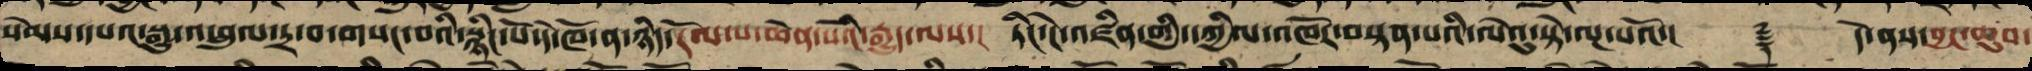སེམས་དཔའ་སྒྱུ་འཕྲུལ་དྲ་བ་གསང་བའི་སྙིང་པོ་དེ་ཁོ་ན་ཉིད་རོལ་པ་ཆེན་པོའི་རྒྱུད་ལས་། ཏིང་འཛིན་གྱི་དཀྱིལ་འཁོར་བསྟན་པའི་ལེའུ་སྟེ་ལྔ་པའོ་།། ༈ དེ་ནས་བྱང་ཆུབ་
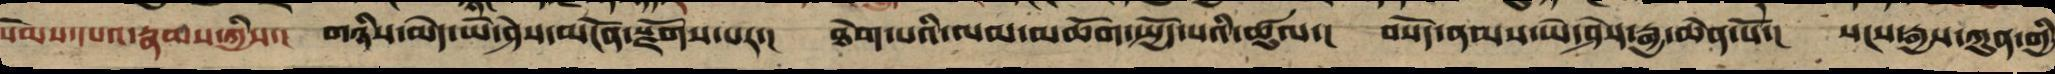སེམས་རྣམས་ཀྱིས་། གཉིས་མེད་ཡེ་ཤེས་མངོན་སྫོགས་པར་། ཐེག་པའི་ལམ་མཆོག་སྤྱད་པའི་ཚུལ་། བསོད་ནམས་ཡེ་ཤེས་རྒྱ་ཆེན་པོ་། སངས་རྒྱས་ཀུན་གྱི
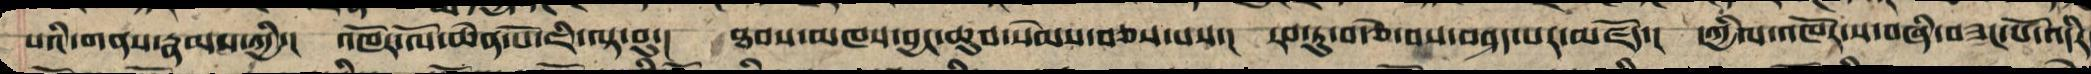པའི་གནས་རྣམས་ཀྱིས་། འཁོར་ལོ་ཆེན་པོ་ཇི་ལྟ་བུ་། ཐབས་མཁས་བྱང་ཆུབ་སེམས་བཅས་པས་། རབ་ཏུ་བརྩེ་བས་བཤད་པར་མཛོད་། དཀྱིལ་འཁོར་ས་གཞི་བཟང་པོ་འདིར
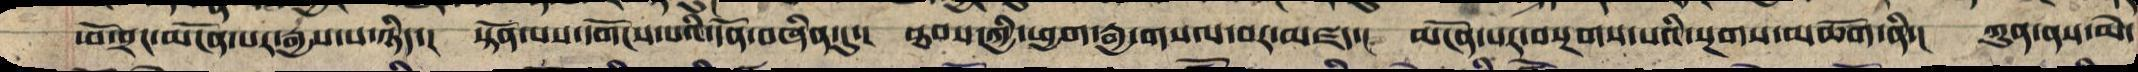ཕོ་བྲང་མངོན་པར་རྒྱས་པ་ཉིད་། སྟོན་པས་དགོངས་པའི་དོན་བཞིན་དུ་། ཐབས་ཀྱི་ཕྱག་རྒྱ་གསལ་བར་མཛད་། མངོན་པར་བསྔགས་པའི་སྔགས་མཆོག་ནི་། ཀུན་ནས་མེ་
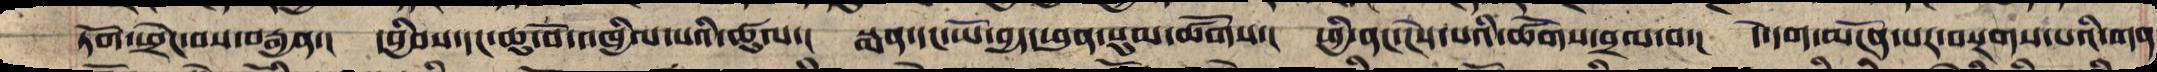ཏོག་ཕྲེང་བས་བརྒྱན་། དབྱིབས་དང་ཆུ་བོ་འཁྱིལ་པའི་ཚུལ་། སྨན་དང་ཡོ་བྱད་ཕུན་སུམ་ཚོགས་། ཕྱི་ནང་ཉེས་པའི་ཚོགས་བྲལ་བ་། དེ་དག་མངོན་པར་བསྔགས་པའི་གན
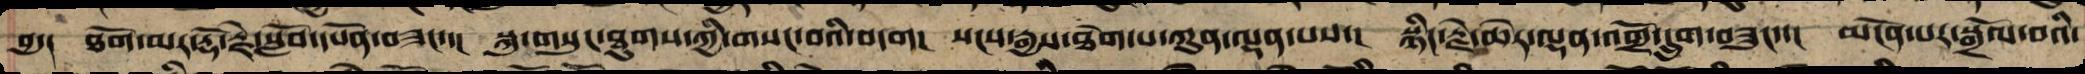བྱ་། ཐོག་མར་རྡོ་རྗེ་སློབ་དཔོན་བཟང་་། སྐུ་གསུང་ཐུགས་ཀྱི་གསང་བའི་བདག། སངས་རྒྱས་ཐེག་པ་ཀུན་ལྡན་པས་། སྙིང་རྗེ་ཆེར་ལྡན་འགྲོ་དྲུག་བཟུང་་། མངོན་པར་སྒྲོལ་བའི་
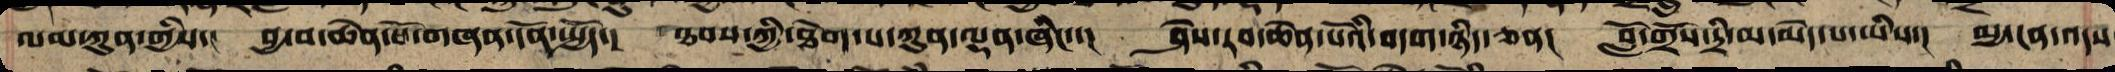ལམ་ཀུན་གྱིས་། བྱ་བ་ཆེན་པོ་གཞན་དོན་སྤྱོད་། ཐབས་ཀྱི་ཐེག་པ་ཀུན་ལྡན་ཞིང་་། ཤེས་རབ་ཆེན་པོའི་བདག་ཉིད་ཅན་། བློ་གྲོས་དྲི་མ་མེད་པ་ཡིས་། མྱ་ངན་འདས་
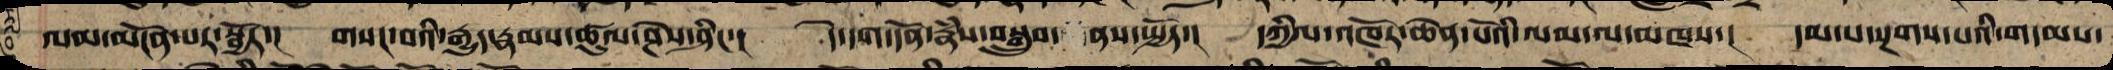ལམ་མངོན་པར་སྦྱོར་། །གསང་བའི་རྒྱུད་རྣམས་ཚུལ་ཤེས་ཤིང་། །དེ་དག་དོན་རྣམས་བསྒྲུབ་ནས་སྤྱོད་། །དཀྱིལ་འཁོར་ཆེན་པོའི་ལམ་ལ་མཁས་། དམ་ས་བསྔགས་པའི་གདམས་
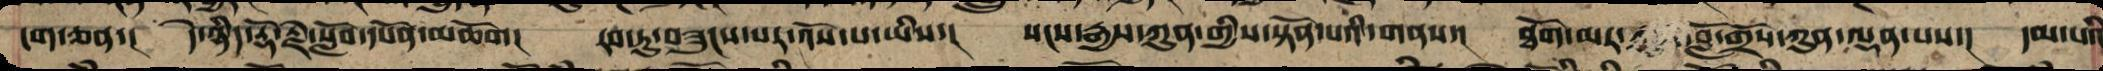ངག་ཅན་། དེ་ཉིད་རྡོ་རྗེ་སློབ་དཔོན་མཆོག། རབ་ཏུ་ཟུང་བར་འོས་པ་ཡི་། སངས་རྒྱས་ཀུན་གྱིས་སྟོན་པའི་གནས་། ཐོག་མར་བློ་གྲོས་ཀུན་ལྡན་པས་། དམ་པའི་
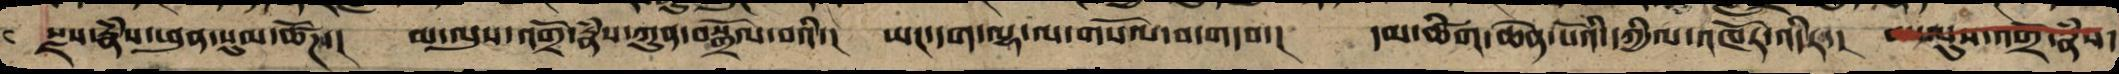སྫས་རྣཾས་ཕུན་སུམ་ཚོཌ་། མ་ལུས་འགྲོ་རྣཾས་ཀུན་བསྒྲོལ་བའི་། ཡང་དག་ལྷ་ལ་གསོལ་བ་གདབ་། དམ་ཚིག་ཆེན་པོའི་དཀྱིལ་འཁོར་འདིར་། མ་ལུས་འགྲོ་རྣཾས་
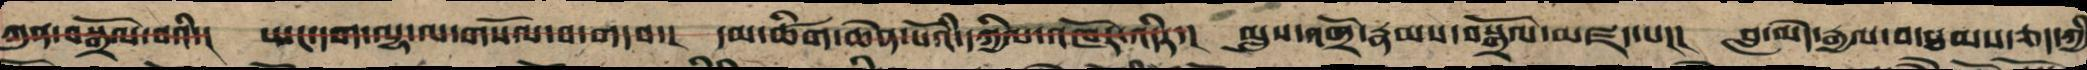ཀུན་བསྒྲོལ་བའི་། ཡང་དག་ལྷ་ལ་གསོལ་བ་གདབ་། དམ་ཚིག་ཆེན་པོའི་དཀྱིལ་འཁོར་འདིར་། མུས་འགྲོ་རྣམས་བསྒྲོལ་མཛད་པ།། བླ་མེད་རྒྱལ་བ་ཐམས་ཅད་ཀྱི
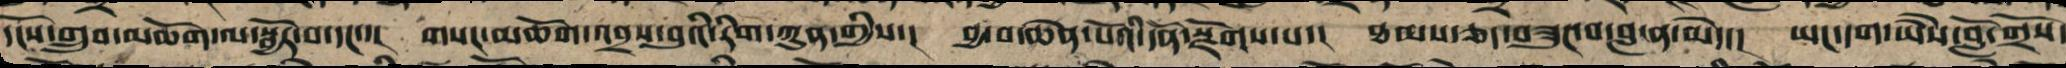དངོས་གྲུབ་མཆོག་ལ་སྦྱོར་བ་དང་་། གསང་མཆོག་འབྲས་བུའི་རིགས་ཀུན་གྱི་། བྱ་བ་ཆེན་པོའི་དོན་སྫོགས་པ་། ཐམས་ཅད་བཟུང་བ་བླ་ན་མེད་། ཡང་དག་ཡཻས་བློ་གྲོས
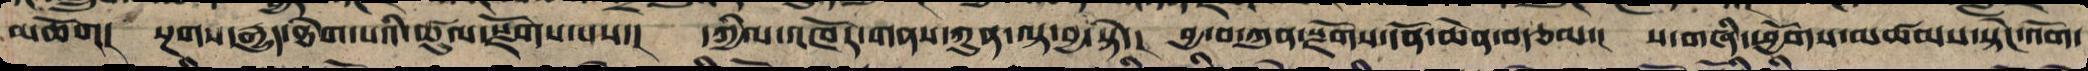མཆོག། སྔགས་རྒྱུད་ཐེག་པའི་ཚུལ་སྫོགས་པས་། དཀྱིལ་འཁོར་གནས་ཀུན་ལྟ་བྱ་སྟེ་། བྱ་བ་ཀུན་སྫོགས་དོན་ཆེན་བརྩམ་། ས་གཞི་ཕྱོགས་མཚམས་སྟེང་འོག་
